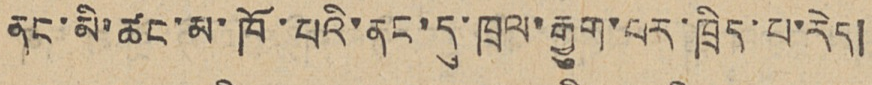ནང་མི་ཚང་མ་ཁོ་པའི་ནང་དུ་ཁྲལ་རྒྱུག་པར་ཁྲིད་པ་རེད།
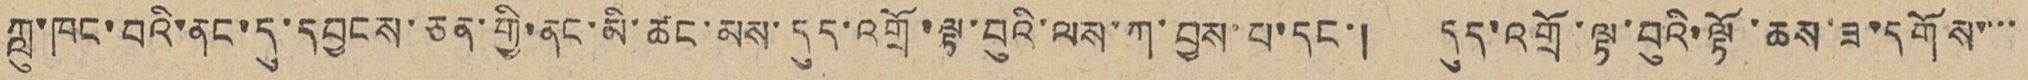ཀླུ་ཁང་བའི་ནང་དུ་དབྱངས་ཅན་གྱི་ནང་མི་ཚང་མས་དུད་འགྲོ་ལྟ་བུའི་ལས་ཀ་བྱས་པ་དང་། དུད་འགྲོ་ལྟ་བུའི་ལྟོ་ཆས་ཟ་དགོས་་་་
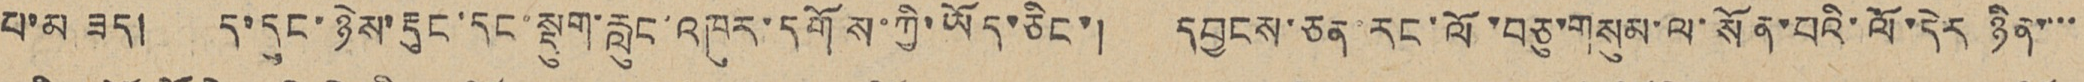པ་མ ཟད། ད་དུང་ཉེས་རྡུང་དང་སྡུག་རླུང་འཁུར་དགོས་ཀྱི་ཡོད་ཅིང་། དབྱངས་ཅན་རང་ལོ་བཅུ་གསུམ་ལ་སོན་པའི་ལོ་དེར ཉིན་་་་
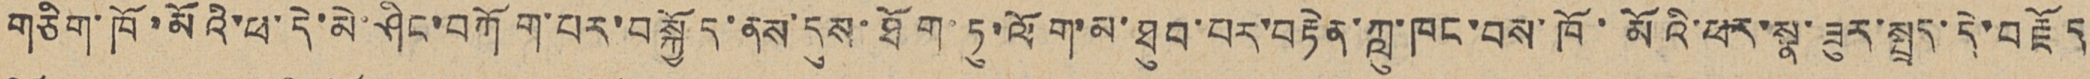གཅིག་ཁོ་མོའི་ཕ་དེ་མེ་ཤིང་བཀོག་པར་བསྐྱོད་ནས་དུས་ཐོག་ཏུ་ལོག་མ་ཐུབ་པར་བརྟེན་ཀླུ་ཁང་བས་ཁོ་མོའི་ཕར་སྣ་ཟུར་སྤྲད་དེ་བརྗོད
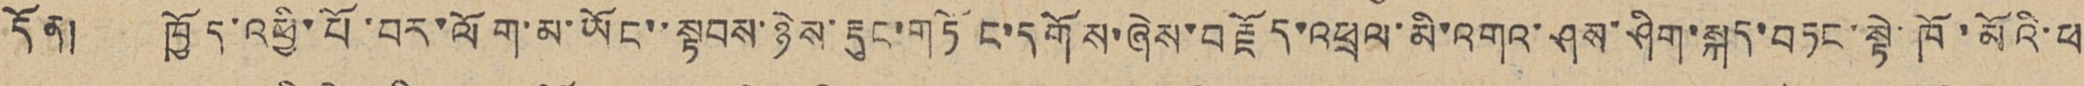དོན། ཁྱོད་འཕྱི་པོ་བར་ལོག་མ་ཡོང་་སྟབས་ཉེས་རྡུང་གཏོང་དགོས་ཞེས་བརྗོད་འཕྲལ་མི་འགའ་ཤས་ཤིག་སྐད་བཏང་སྟེ་ཁོ་མོའི་ཕ
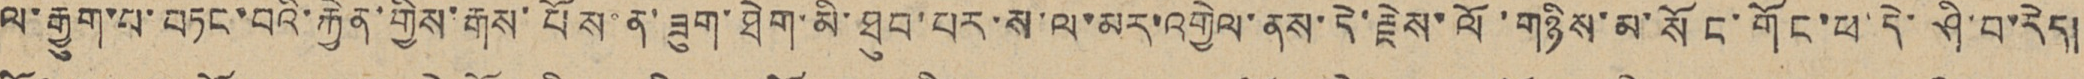ལ་རྒྱུག་པ་བཏང་བའི་རྐྱེན་གྱིས་རྒས་པོས་ན་ཟུག་ཐེག་མི་ཐུབ་པར་ས་ལ་མར་འགྱེལ་ནས་དེ་རྗེས་ལོ་གཉིས་མ་སོང་གོང་ཕ་དེ་ཤི་བ་རེད།
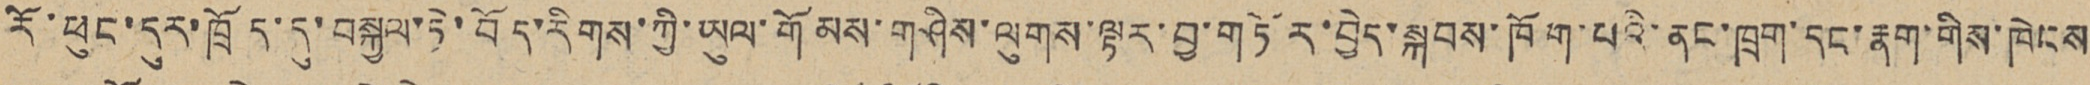རོ་ཕུང་དུར་ཁྲོད་དུ་བསྐྱལ་ཏེ་བོད་རིགས་ཀྱི་ཡུལ་གོམས་གཤིས་ལུགས་ལྟར་བྱ་གཏོར་བྱེད་སྐབས་ཁོག་པའི་ནང་ཁྲག་དང་རྣག་གིས་ཁེངས
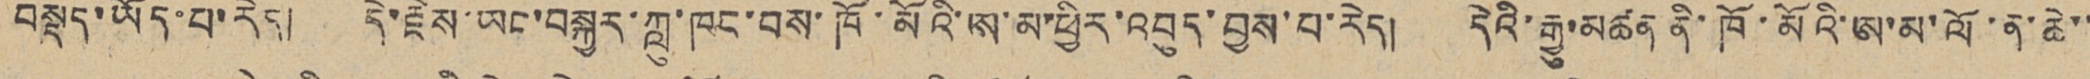བསྡད་ཡོད་པ་རེད། དེ་རྗེས་ཡང་བསྐྱར་ཀླུ་ཁང་བས་ཁོ་མོའི་ཨ་མ་ཕྱིར་འབུད་བྱས་པ་རེད། དེའི་རྒྱུ་མཚན ནི་ཁོ་མོའི་ཨ་མ་ལོ་ན་ཆེ་་
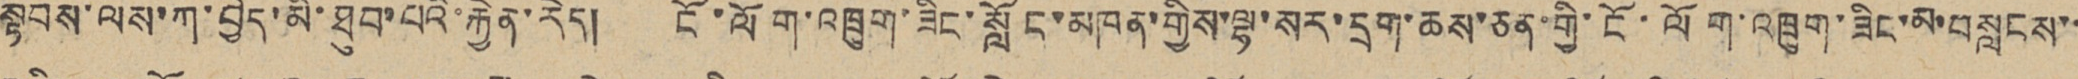སྟབས་ལས་ཀ་བྱེད་མི་ཐུབ་པའི་རྐྱེན་རེད། ངོ་ལོག་འཁྲུག་ཟིང་སློང་མཁན་གྱིས་ལྷ་སར་དྲག་ཆས་ཅན་གྱི་ངོ་ལོག་འཁྲུག་ཟིང་མ་བསླངས་་
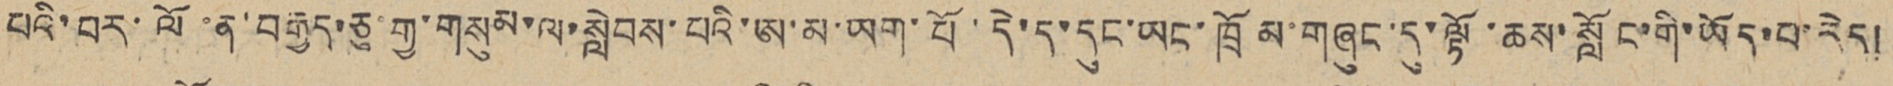པའི་བར་ལོ་ན་བརྒྱད་ཅུ་གྱ་གསུམ་ལ་སླེབས་པའི་ཨ་མ་ཡག་པོ་དེ་ད་དུང་ཡང་ཁྲོམ་གཞུང་དུ་ལྟོ་ཆས་སློང་གི་ཡོད་པ་རེད།
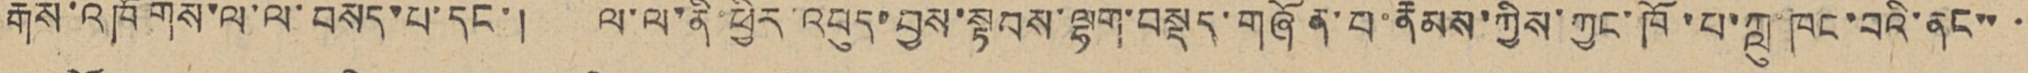རྒས་འཁོགས་ལ་ལ་བསད་པ་དང་། ལ་ལ་ནི་ཕྱིར་འབུད་བྱས་སྟབས་ལྷག་བསྡད་གཞོན་པ་རྣམས་ཀྱིས་ཀྱང་ཁོ་པ་ཀླུ་ཁང་བའི་ནང་་་
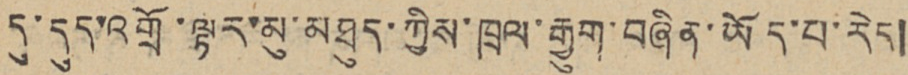དུ་དུད་འགྲོ་ལྟར་མུ་མཐུད་ཀྱིས་ཁྲལ་རྒྱུག་བཞིན་ཡོད་པ་རེད།
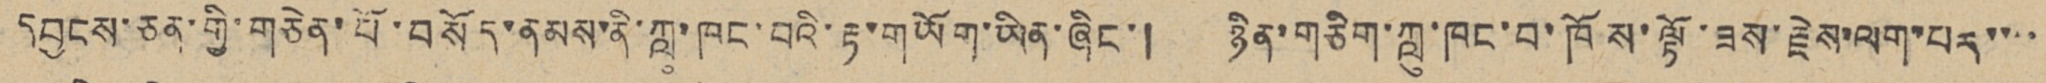དབྱངས་ཅན་གྱི་གཅེན་པོ་བསོད་ནམས་ནི་ཀླུ་ཁང་བའི་རྟ་གཡོག་ཡིན་ཞིང་། ཉིན་གཅིག་ཀླུ་ཁང་བ་ཁོས་ལྟོ་ཟས་རྗེས་ལག་པར་་་་
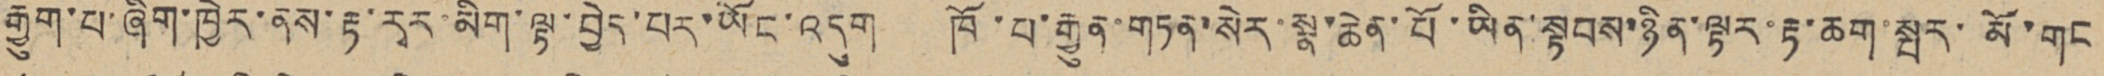རྒྱུག་པ་ཞིག་ཁྱེར་ནས་རྟ་རྭར་མིག་ལྟ་བྱེད་པར་ཡོང་འདུག ཁོ་པ་རྒྱུན་གཏན་སེར་སྣ་ཆེན་པོ་ཡིན་སྟབས་ཉིན་ལྟར་རྟ་ཆག་སྤར་མོ་གང
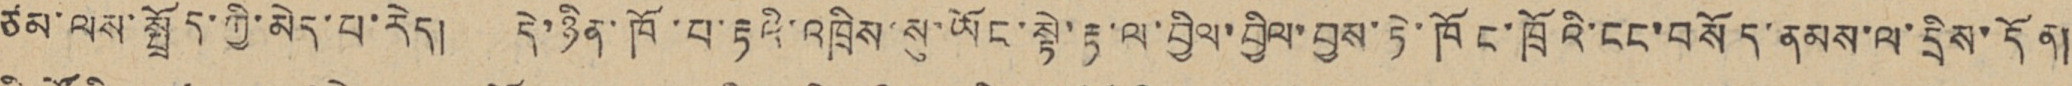ཙམ་ལས་སྦྲོད་ཀྱི་མེད་པ་རེད། དེ་ཉིན་ཁོ་པ་རྟའི་འཁྲིས་སུ་ཡོང་སྟེ་རྟ་ལ་བྱིལ་བྱིལ་བྱས་ཏེ་ཁོང་ཁྲོའི་ངང་བསོད་ནམས་ལ་དྲིས་དོན།
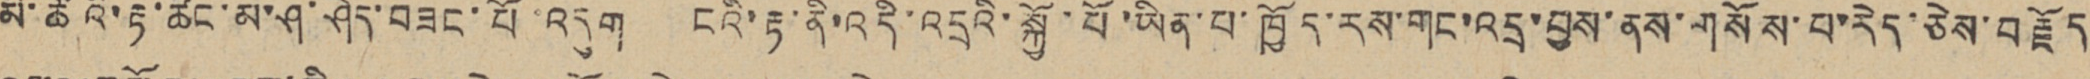མི་ཚོའི་རྟ་ཚང་མ་ཤ་ཤེད་བཟང་པོ་འདུག ངའི་རྟ་ནི་འདི་འདྲའི་སྐྱོ་པོ་ཡིན་པ་ཁྱོད་རས་གང་འདྲ་བྱས་ནས་གསོས་པ་རེད་ཅེས་བརྗོད
